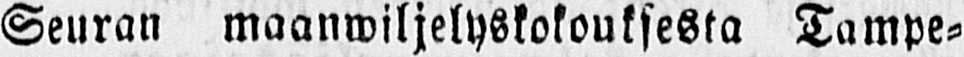Seuran maanwiljelyskokouksesta Tampe-
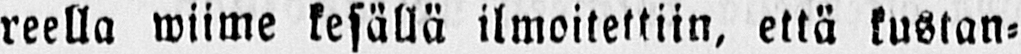reella wiime kesällä ilmoitettiin, että kustan-
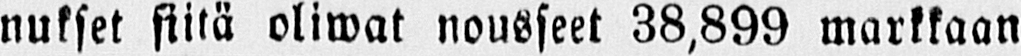nukset siitä oliwat nousseet 38,899 markkaan
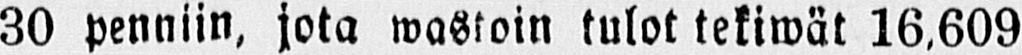30 penniin, jota wastoin tulot tekiwät 16.609
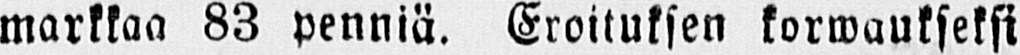markkaa 83 penniä. Eroituksen korwaukseksi
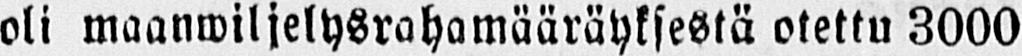oli maanwiljelysrahamääräyksestä otettu 3000
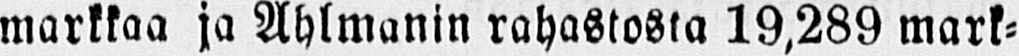markkaa ja Ahlmanin rahastosta 19,289 mark-
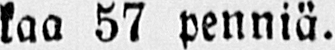kaa 57 penniä.
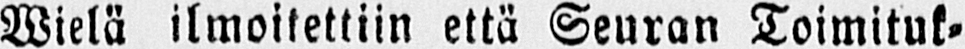Wielä ilmoitettiin että Seuran Toimituk-
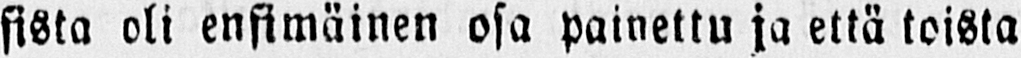sista oli ensimäinen osa painettu ja että toista
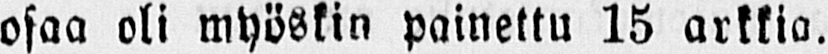osaa oli myöskin painettu 15 arkkia.
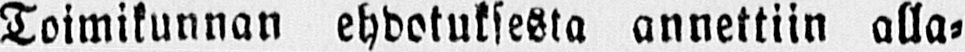Toimikunnan ehdotuksesta annettiin alla-
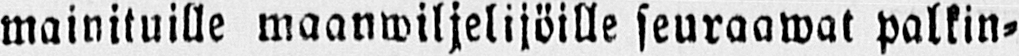mainituille maanwiljelijöille seuraawat palkin-
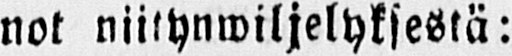not niitynwiljelyksestä:
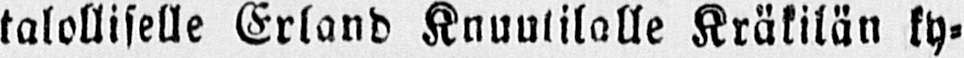talolliselle Erland Knuutilalle Kräkilän ky-
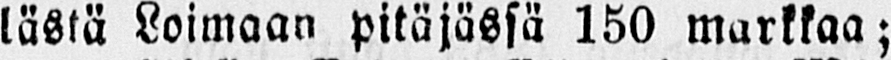lästä Loimaan pitäjässä 150 markkaa;
